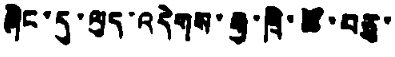ཞིང་དུ་ལུད་འདེགས་རྒྱ་ཁྲི་ཚོ་བཅུ་
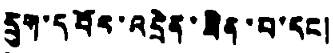དྲུག་དབོར་འདྲེན་ཟིན་པ་དང།
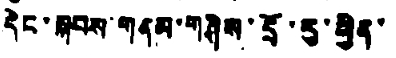དེང་སྐབས་གནམ་གཤིས་དྲོ་རུ་ཕྱིན་
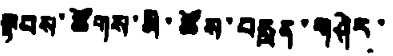སྟབས་ཚོགས་མི་ཚོས་བརླན་གཤེར་
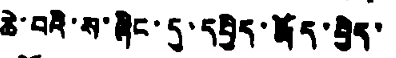ཆེ་བའི་ས་ཞིང་དུ་དཔྱིད་རྨོད་བྱེད་
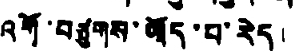འགོ་བཙུགས་ཡོད་པ་རེད།
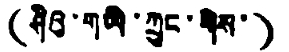(ཤིའུ་གཡི་ཀྲུང་གིས་)
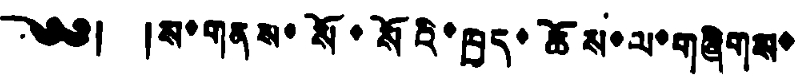༄༅། །ས་གནས་སོ་སོའི་ཁྱད་ཆོས་ལ་གཞིགས་
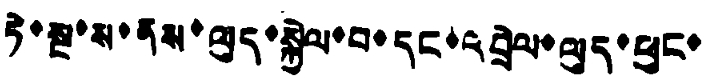ཏེ་སྔ་ས་ནས་ལུད་སྐྱེལ་བ་དང་འབྲེལ་ལུད་ཕུང་
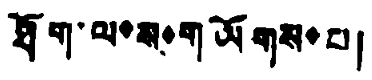ཐོག་ལ་ས་གཡོགས་པ།
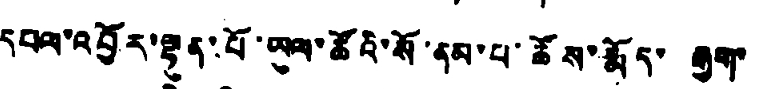དཔལ་འབྱོར་ལྷུན་པོ་ཡུལ་ཚོའི་སོ་ནམ་པ་ཚོས་རྨོད་ རྒྱག་
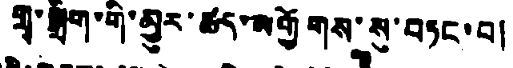གྲྭ་སྒྲིག་གི་མྱུར་ཚད་མགྱོགས་སུ་བཏང་བ།
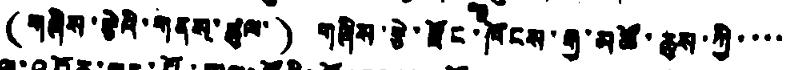(གཞིས་རྩེའི་གནས་ཚུལ་) གཞིས་རྩེ་རྫོང་ཁོངས་རྒྱ་མཚོ་ཆུས་ཀྱི་་་་
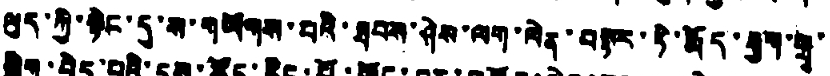ལུད་ཀྱི་སྟེང་དུ་ས་གཡོགས་པའི་ཐབས་ཤེས་ལག་ལེན་བསྟར་ཏེ་རྨོད་རྒྱག་གྲྭ་
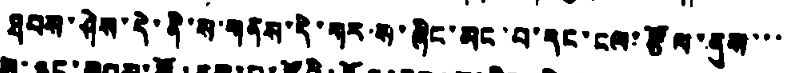ཐབས་ཤེས་དེ་ནི་ས་གནས་དེ་གར་ས་ཞིང་མང་བ་དང་ངས་རྩོལ་ནུས་་་
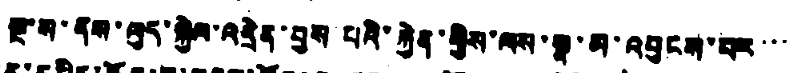སྔ་ས་ནས་ལུད་སྐྱེལ་འདྲེན་བྱས་པའི་རྐྱེན་གྱིས་ལས་སྣ་མ་འབུངས་པར་་་
